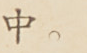中。
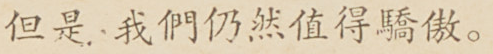但是，我們仍然值得驕傲。
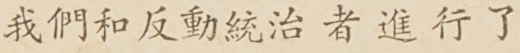我們和反動統治者進行了
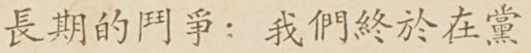長期的鬥爭：我們終於在黨
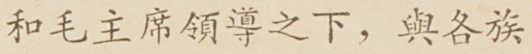和毛主席領導之下，與各族
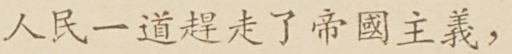人民一道趕走了帝國主義，
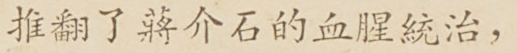推翻了蔣介石的血腥統治，
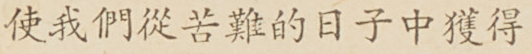使我們從苦難的日子中獲得
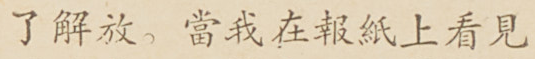了解放。當我在報紙上看見
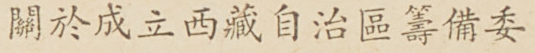關於成立西藏自治區籌備委
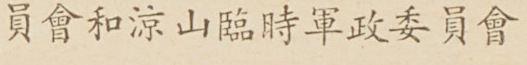員會和涼山臨時軍政委員會
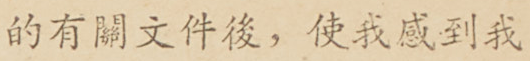的有關文件後，使我感到我
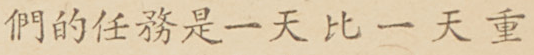們的任務是一天比一天重
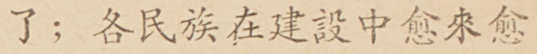了；各民族在建設中愈來愈
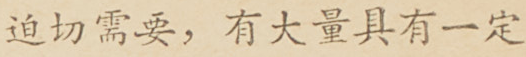迫切需要，有大量具有一定
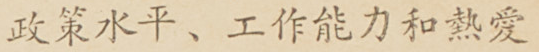政策水平、工作能力和熱愛
